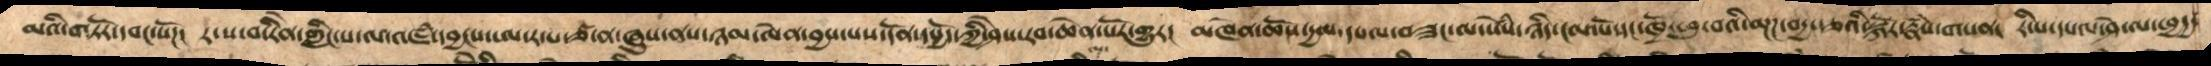མའི་གཏོར་དབང་སོཌ།  ར་ས་བ་རིནེ་གླིང་པ་ལ་འཇཾ་དབྱངས་ཨ་ར་པ་ཙ་ན་ཞུས་ནས་ཉམ་ལེན་བྱས་པས་དོན་དཔྱོད་ཀྱི་ཤེས་རབ་ཆེན་པོར་གྱུར།  མཁེན་ཆོས་དྱལ་དཔལ་བཟང་ལ་སེཾས་ཉིད་ངལ་གསོ་དང་ཁྲོ་ཕུ་བའི་མྔཌ་བདྱ་རྩའི་སྐོར་རྣཾས་གསན།  རི་པ་དཔལ་ཤེ་ལ་ཕྱདྱ་
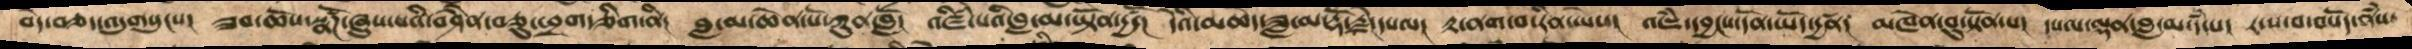བེད་བཅད་འདུགསུངས།  ཟབ་ཆོས་སྣཚོཌ་ཞུས་པའི་བཤཻན་བཅུ་ཕྲག་ཅིག་ནི།  བླ་མ་ཆེན་པོ་ཀུན་བློ།  འཛིཾ་པའི་བླ་མ་ཡྟོན་དྱ་མཚོ།  དེའི་མཆེད་ཟླ་མ་རྡོ་རྗེ་དཔལ།  རྟ་ནག་བ་རིན་ཡེས།  འཇཾ་དབྱངས་དོན་ཡོད་དྱཚན།  མཁེན་བུ་སྟོན་པ།  དཔལ་ལྡན་བླ་མ་དཾ་པ།  ར་ས་བ་བསོད་ནཾས་
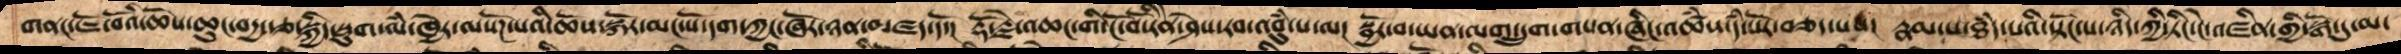གནང་ཇོ་བོའི་ཆོས་ཆུང་བདྱ་རྩ་སྐྱིད་སྡུག་ལཾ་ཁྱེར་ལསོཌ་པའི་ཆོས་སྐོར་མང་པོ་དག་ཀྱང་ཞོར་ཉན་མཛད་དེ།  རྡོ་རྗེ་འཆང་གི་ངོ་བོ་རིནེ་ཤེས་རབ་འབུཾ་པ་ལ།  སྦྱོར་བ་ཡན་ལག་དྲུག་གསན་ཞིང་འཚཾས་དཾ་པོར་བཅད་པས།  རྣམ་པ་ཐཾད་པའི་སྟོང་པ་ཉིད་ཀྱི་ཏིང་ངེ་འཛིན་གྱི་སྒོ་དུ་མ་
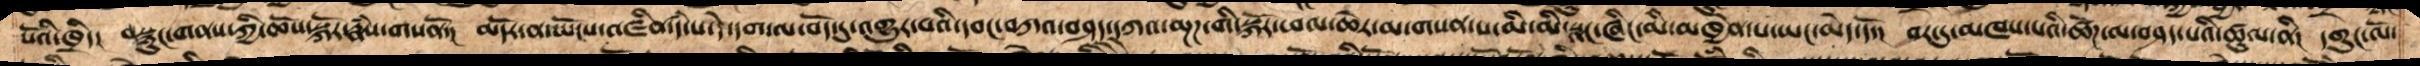པོའི་ཁྲིད།  བསྙུང་གནས་ཀྱི་ཆོས་སྐོར་རྣཾས་གསནོ།  མདོར་ན་ཡོངས་འཛིན་དཾ་པ་དེ་དག་ལ་བོད་དུ་འགྱུར་བའི་དབང་བཀའ་བཤད་དཀའ་མྔཌ་གི་སྐོར་ཕལ་ཆེར་མ་གསན་པ་མི་མི་སྣང་ཞིང་མི་མཁྱེན་པ་ཡང་མེད་དོ།  བར་དུ་མཁས་པའི་ཚོཌ་ལ་བཤད་པའི་ཚུལ་ནི།  དགུང་ལོ་
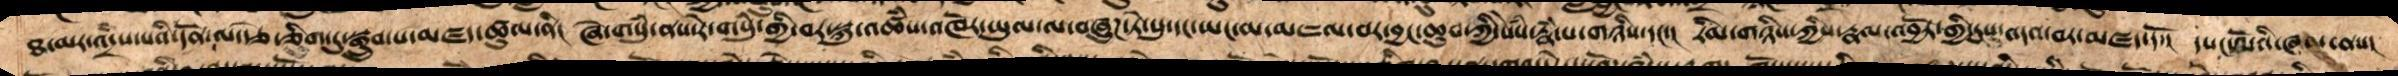ཐ་མར་འདྲིས་པའི་དོན་ལ་རྩེ་ཅིག་དུ་སྒྲུབ་པ་མཛད་ཚུལ་ནི།  ཞེ་གསུཾ་ནས་རེ་གསུཾ་བར་སྐུ་འཚཾས་འཁོར་ཡུལ་ལ་བཞུཌ་ཏེ་སུ་དང་ཡང་མ་མཇལ་བར་བྱང་ཆུབ་ཀྱི་སེཾས་རྣཾ་པ་གཉིས་དང་།  རིམ་གཉིས་ཀྱིས་རྣལ་འབྱོར་གྱི་དུས་འདའ་བར་མཛད་དོ།  དཔང་ལོའི་ཞལ་ནས།
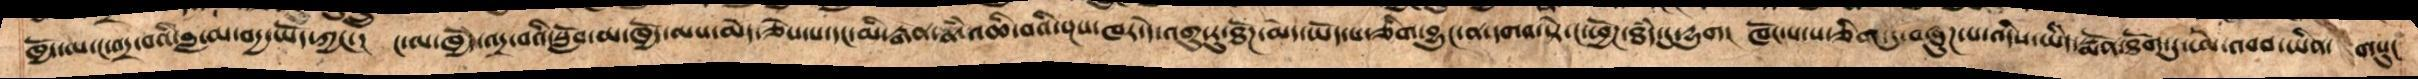ཁྱོད་ལ་ང་འདྲ་བའི་བླ་མ་བདྱ་ཡོད་ཀྱང་།  ང་ལ་ཁྱོད་འདྲ་བའི་སློབ་མ་ཁྱོད་ལས་མེད་ཅེས་པ་དང་མི་རྒན་ནཾ་འཆི་བའི་སྔས་ཁ་དེ་འགུ་རུ་ཐོཌ་མེད་ཡོད་པ་ཅིག་བྱུང་ན་དགའ་སྟེ་ང་ཕྱོཌ་ཐཾད་དུ་དྱུག།  ཁོང་པ་ས་ཅིག་དུ་བཞུཌ་པ་འདིས་ཡིད་སྨོན་ཐོག་དུཨེ་འབབ་ཡིན་ གསུང་
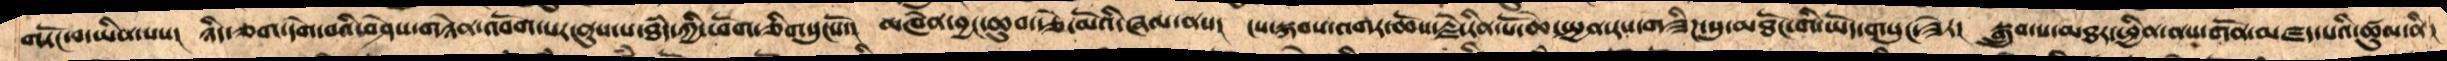གཏོང་བ་ཡིན་པས།  ཉིད་ཅག་དགེ་བའི་བཤེས་གཉེན་འབོག་པར་ནུས་པ་ཐཾད་ཀྱི་ཕོག་ཅིག་གསུངསོ་།  མཁེན་བྱང་ཆུབ་རྩེ་མོའི་ཞལ་ནས།  ངས་སྐབས་འགར་ཆོས་རྗེ་རིན་པོ་ཆེ་སྤྱན་རས་གཟིཌ་སུ་མཐོང་གི་ཡོད་གསུང་ཟེར།  སྒྲུབ་པ་མཐར་ཕྱིན་ནས་གོན་མཛད་པའི་ཚུལ་ནི།
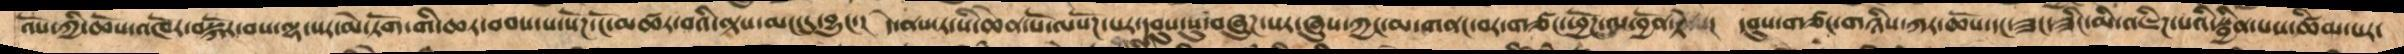འོས་ཀྱི་ཆོས་འཁོར་བསྐོར་བས་ལྷ་སར་མེ་ཏོག་གི་ཆར་བབས་པ་སོཌ་ངོ་མཚར་བའི་ལྟས་མང་དུ་བྱུང་།  དེ་ནས་ཏ་སི་ཆེན་པོ་ལསོཌ་པས་དབུས་སུ་བཞུཌ་པར་ཞུས་ཀྱང་མ་གནང་བར་གཙང་ཕྱོཌ་ལ་བྱོན་ཏེ།  དབུས་གཙང་གཉིས་ཀར་ཆོས་དང་ཟང་ཟིང་མི་འཇིཌ་པའི་སྦྱིན་པས་ཚིམ་པར་
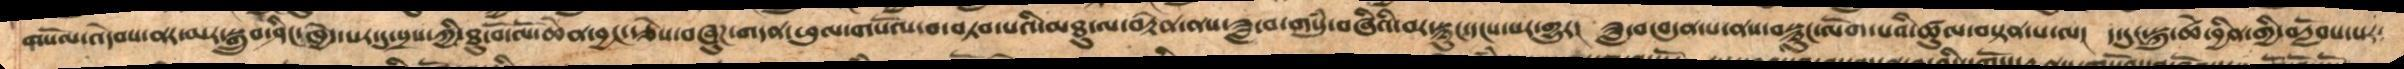གསོལ་འདེབས་ནར་མར་སྒྲུབ་ཤིང་ཁྱེད་པར་དུ་སྲས་ཀྱི་ཐུ་བོ་ལོ་ཆེན་བྱང་རྩེས་བཞུཌ་གདན་ཕུལ་གསོལ་བ་བཏབ་པའི་མཐུ་ལ་བརྟེན་ནས་ཟླ་བ་གསུཾ་བཞིའི་བར་སྙུང་དངས་པར་གྱུར།  ཟླ་བ་བདུན་པ་ནས་བསྙུང་ལོག་པའི་ཚུལ་བསྟན་པ་ལ།  ད་དུང་སྐུ་ཚེ་བྱིན་གྱི་བརློབས་པར་
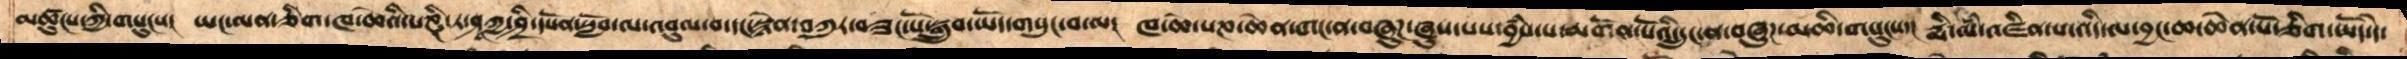མཚུངས་ཀྱི་གསུངས།  ཡང་ལན་ཅིག་ཁ་ཆེའི་པཎྚི་ཏ་ཤཱཀྱ་ཤྲཱི་དཔོན་སློབ་ལ་འབུལ་བ་དང་སྙེན་བཀུར་བཟང་པོ་སྒྲུབ་ཡོད་གསུང་བ་ལ།  ཁ་ཆེ་པཎ་ཆེན་གང་ན་བཞུཌ་ཞུས་པས་བྱཾས་པ་མགོན་པོའི་དྲུང་ན་བཞུཌ་མཆི་གསུངས་།  རྨི་ལཾ་འཛིན་པ་འདི་ལ་བྱང་ཆ་ཆེན་པོ་ཅིག་ཡོད་དེ་
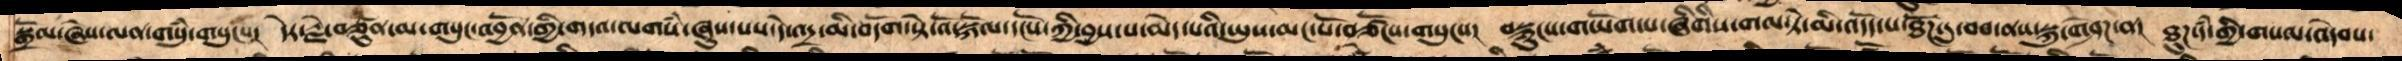སྒྲོལ་མ་ཞེས་ལན་གསུཾ་གསུངས།  དེར་རྗེ་བཙུན་མ་གསུང་འབྱོན་གྱི་གདའ་ལགསཾ་ཞུས་པས་དེ་འདྲ་མི་བདགོ་སྟེ་འོ་སྐོལ་དངོས་ཀྱིས་བྱས་པ་མེད་པའི་ཡུས་མང་པོ་བཙོངས་གསུངས།  བསྙུངས་གཡོག་པ་ཞིགིས་གལ་ཏེ་མི་འདོད་པ་ཐོཌ་དུ་བབ་ནས་སྐུ་གཤེཌ་ན།  ཐུཌ་དཾ་གྱི་གསལ་འདེབས་
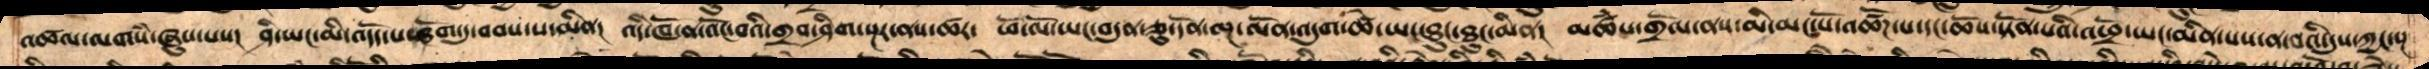འཚལ་ལགསཾ་ཞུས་པས།  ཤི་ཡང་མི་འདོད་པ་ཐོག་དུ་བབ་པ་མིན།  འདི་ཁོ་ན་འོང་བའི་གྲབ་ཤིག་སྔར་ནས་ཚར།  ཕོ་ལོ་ཡང་བདུན་ཅུ་དོན་ལྔ་ལོན་འདུག་ཚེ་ཡང་ཐུང་ཐུང་མིན།  མཚཾས་གྲོལ་ནས་མི་མང་པོ་འཚོཌ་པ་དང་ཆོས་སྟོན་པའི་འཕྲོ་ཡང་མིན་པས་ན་བའི་དུས་ཀྱང་སྔ
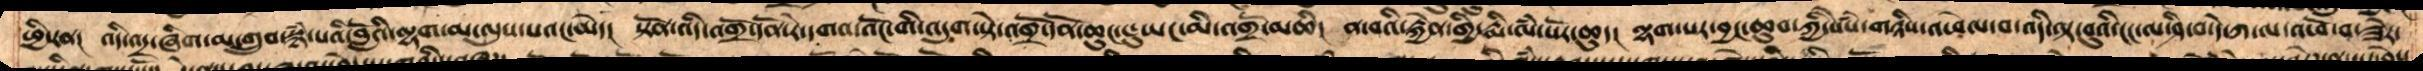ཕྱི་རན།  འདི་འདྲ་ཞིག་མ་གྲུབ་སྙཾ་པའི་བློའི་ལྷག་མ་ལུས་པའང་མེད།  སྟོན་འདི་འགྲོ་དོན་རེ་དགའ་འོང་གི་འདུག་སྟེ་འགྲོ་དོན་ཆུང་དུ་ཡང་མི་འགྲོ་མཆི།  ན་བའི་རྐྱེན་གྱི་རྨི་ལཾ་སོར་ཆུད།  ལྷག་པར་བྱང་ཆུབ་ཀྱི་སེསཾ་གཉིས་འཕེལ་བ་འདི་ལྟ་བུའི་ངང་ལ་ཤི་བ་དེ་ཀ་ལ་འཕོ་བ་ཟེར་
